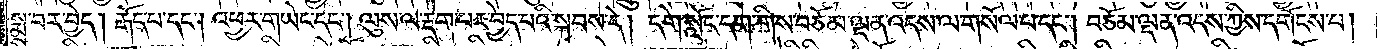སྨྲ་བར་བྱེད། རྒོད་པ་དང༌། འཕྱར་གཡེང་དང༌། ལུས་ལ་རྡེག་པར་བྱེད་པའི་སྐབས་དེ། དགེ་སློང་དག་གིས་བཅོམ་ལྡན་འདས་ལ་གསོལ་པ་དང༌། བཅོམ་ལྡན་འདས་ཀྱིས་དགོངས་པ།
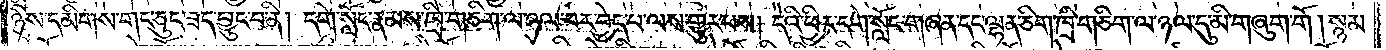ཉེས་དམིགས་གང་ཅུང་ཟད་བྱུང་བ་ནི། དགེ་སློང་རྣམས་ཁྲི་གཅིག་ལ་ཉལ་བར་བྱེད་པ་ལས་གྱུར་པས། དེའི་ཕྱིར་དགེ་སློང་གཞན་དང་ལྷན་ཅིག་ཁྲི་གཅིག་ལ་ཉན་དུ་མི་གཞུག་གོ །སྙམ་
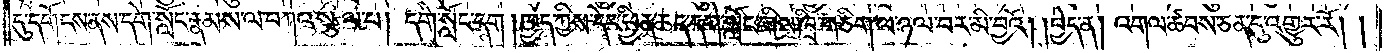དུ་དགོངས་ནས་དགེ་སློང་རྣམས་ལ་བཀའ་སྩལ་པ། དགེ་སློང་དག །ཁྱེད་ཀྱིས་དེང་ཕྱིན་ཆད་དགེ་སློང་གིས་ཁྲི་གཅིག་ལ་ཉལ་བར་མི་བྱའོ། །བྱེད་ན། འགལ་ཚབས་ཅན་དུ་འགྱུར་རོ། །
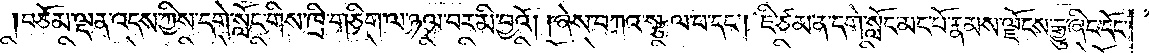།བཅོམ་ལྡན་འདས་ཀྱིས་དགེ་སློང་གིས་ཁྲི་གཅིག་ལ་ཉལ་བར་མི་བྱའོ། །ཞེས་བཀའ་སྩལ་པ་དང༌། ཇི་ཙམ་ན་དགེ་སློང་མང་པོ་རྣམས་ལྗོངས་རྒྱུ་ཞིང་དོང་
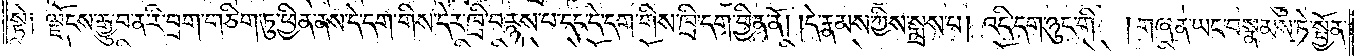སྟེ། ལྗོངས་རྒྱུ་བ་ན་རི་བྲག་གཅིག་ཏུ་ཕྱིན་ནས་དེ་དག་གིས་དེར་ཁྲི་བརྙས་པ་དང་དེ་དག་གིས་ཁྲི་དག་བྱིན་ནོ། །དེ་རྣམས་ཀྱིས་སྨྲས་པ། འདི་དག་ཉུང་གི། གཞན་ཡང་བསྣམས་ཏེ་སྤྱོན་
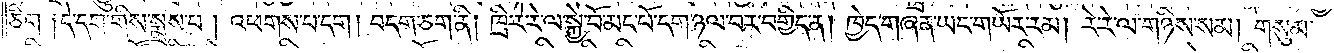ཅིག །དེ་དག་གིས་སྨྲས་པ། འཕགས་པ་དག། བདག་ཅག་ནི། ཁྲི་རེ་རེ་ལ་སྐྱེ་བོ་མང་པོ་དག་ཉལ་བར་བགྱིད་ན། ཁྱེད་གཞན་ཡང་གཡོར་རམ། རེ་རེ་ལ་གཉིས་སམ། གསུམ་
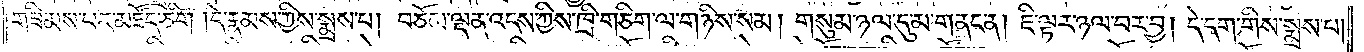གཟིམས་པར་མཛོད་ཅིག །དེ་རྣམས་ཀྱིས་སྨྲས་པ། བཅོམ་ལྡན་འདས་ཀྱིས་ཁྲི་གཅིག་ལ་གཉིས་སམ། གསུམ་ཉལ་དུ་མ་གནང་ན། ཇི་ལྟར་ཉལ་བར་བྱ། དེ་དག་གིས་སྨྲས་པ།
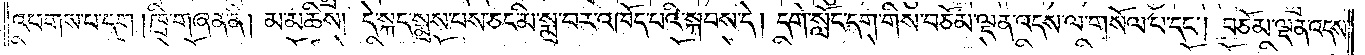འཕགས་པ་དག །ཁྲི་གཞན་ནི། མ་མཆིས། དེ་སྐད་སྨྲས་པས་ཅང་མི་སྨྲ་བར་འཁོད་པའི་སྐབས་དེ། དགེ་སློང་དག་གིས་བཅོམ་ལྡན་འདས་ལ་གསོལ་པ་དང༌། བཅོམ་ལྡན་འདས་
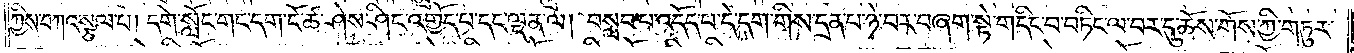ཀྱིས་བཀའ་སྩལ་པ། དགེ་སློང་གང་དག་ངོ་ཚ་ཤེས་ཤིང་འགྱོད་པ་དང་ལྡན་ལ། བསླབ་པ་འདོད་པ་དེ་དག་གིས་དྲན་པ་ཉེ་བར་བཞག་སྟེ་གདིང་བ་བཏིང་ལ་བར་དུ་ཆོས་གོས་ཀྱི་གཏུར་
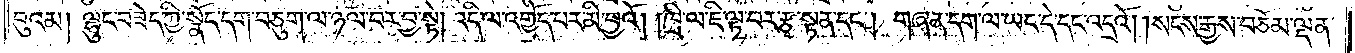བུའམ། ལྷུང་བཟེད་ཀྱི་སྣོད་དག་བཅུག་ལ་ཉལ་བར་བྱ་སྟེ། འདི་ལ་འགྱོད་པར་མི་བྱའོ། །ཁྲི་ལ་ཇི་ལྟ་བར་རྩྭ་སྟན་དང༌། གཞན་དག་ལ་ཡང་དེ་དང་འདྲའོ། །སངས་རྒྱས་བཅོམ་ལྡན་
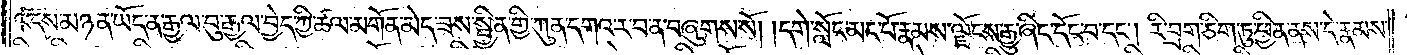འདས་མཉན་ཡོད་ན་རྒྱལ་བུ་རྒྱལ་བྱེད་ཀྱི་ཚལ་མགོན་མེད་ཟས་སྦྱིན་གྱི་ཀུན་དགའ་ར་བ་ན་བཞུགས་སོ། །དགེ་སློང་མང་པོ་རྣམས་ལྗོངས་རྒྱུ་ཞིང་དོང་བ་དང༌། རི་བྲག་ཅིག་ཏུ་ཕྱིན་ནས་དེ་རྣམས་
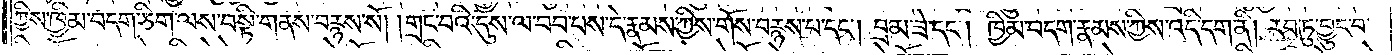ཀྱིས་ཁྱིམ་བདག་ཅིག་ལས་བསྟི་གནས་བརྙས་སོ། །གྲང་བའི་དུས་ལ་བབ་པས་དེ་རྣམས་ཀྱིས་གོས་བརྙས་པ་དང༌། བྲམ་ཟེ་དང༌། ཁྱིམ་བདག་རྣམས་ཀྱིས་འདི་དག་ནི། རབ་ཏུ་བྱུང་བ་
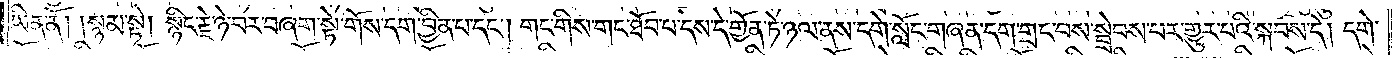ཡིན་ནོ། །སྙམ་སྟེ། སྙིང་རྗེ་ཉེ་བར་བཞག་སྟེ་གོས་དག་བྱིན་པ་དང༌། གང་གིས་གང་ཐོབ་པ་དས་དེ་གྱོན་ཏེ་ཉལ་ནས་དགེ་སློང་གཞན་དག་གྲང་བས་སྦྲེབས་པར་གྱུར་པའི་སྐབས་དེ། དགེ་
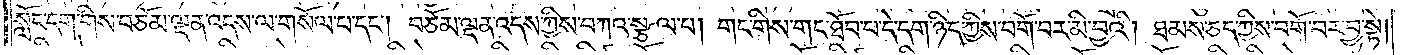སློང་དག་གིས་བཅོམ་ལྡན་འདས་ལ་གསོལ་པ་དང༌། བཅོམ་ལྡན་འདས་ཀྱིས་བཀའ་སྩལ་པ། གང་གིས་གང་ཐོབ་པ་དེ་དག་ཉིད་ཀྱིས་བགོ་བར་མི་བྱའི། ཐམས་ཅད་ཀྱིས་བགོ་བར་བྱ་སྟེ།
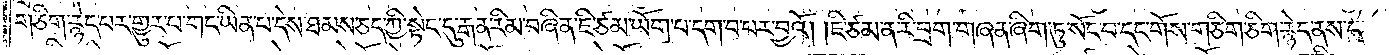གཅིག་རྙེད་པར་གྱུར་པ་གང་ཡིན་པ་དེས་ཐམས་ཅད་ཀྱི་སྟེང་དུ་རྒན་རིམ་བཞིན་ཇི་ཙམ་ཡོག་པ་དག་བ་པར་བྱའོ། །ཇི་ཙམ་ན་རི་བྲག་གཞན་ཞིག་ཏུ་སོང་བ་དང་གོས་གཅིག་ཅིག་རྙེད་ནས་ད་
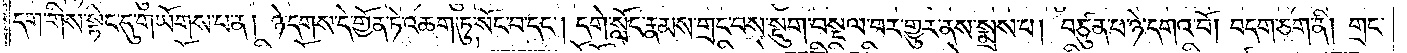དག་གིས་སྟེང་དུ་གཡོགས་པ་ན། ཉེ་དགས་དེ་གྱོན་ཏེ་འཆག་ཏུ་སོང་བ་དང༌། དགེ་སློང་རྣམས་གྲང་བས་སྡུག་བསྔལ་བར་གྱུར་ནས་སྨྲས་པ། བཙུན་པ་ཉེ་དགའ་བོ། བདག་ཅག་ནི། གྲང་
